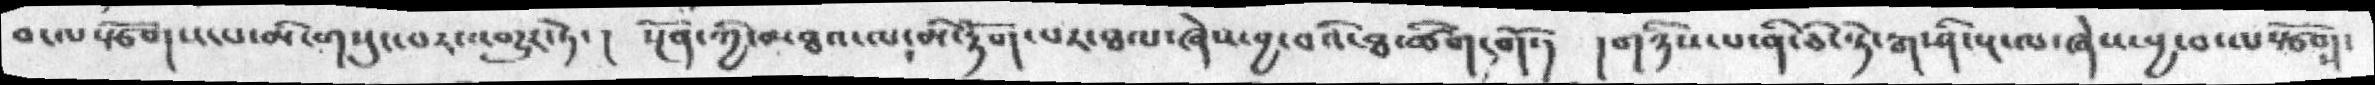བ་ལསྩོགས་པ་མི་གསུང་བར་འགྱུར་ཏེ་།  སྔོན་ཀྱི་མཐའ་ལ་མི་རྟོག་པར་ཐལ་ཞེས་བྱ་བའི་ཐ་ཚིག་གོ་།  །གཉིས་པ་ནི་ཅི་སྟེ་རྒ་ཤི་སྔ་ལ་ཞེས་བྱ་བ་ལསྩོགས་
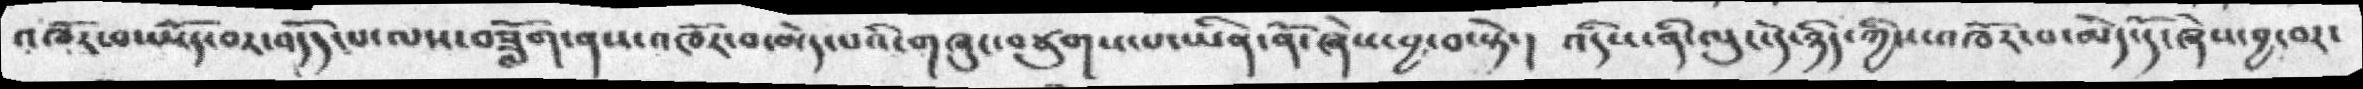འཁོར་བ་ཡོད་བར་འདོད་པ་ལས་བཟློག་ནས་འཁོར་བ་མེད་པའི་གཞུང་བཙུགས་པ་ཡིན་ནོ་ཞེས་བྱ་བསྟེ་།  འདིས་ནི་ལུང་དེ་ཉིད་ཀྱིས་འཁོར་བ་མེད་དོ་ཞེས་བྱ་བར་
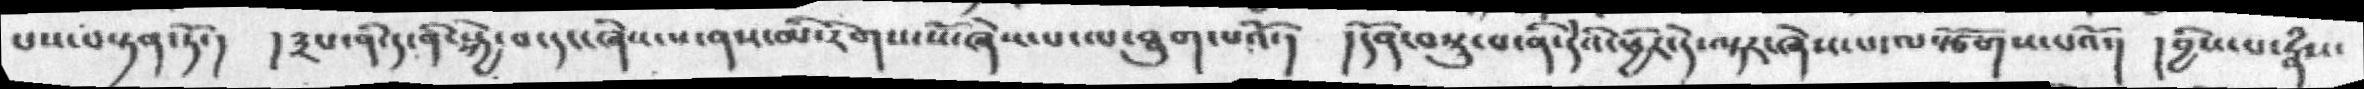པས་བསྟན་ཏོ་།  །༣པ་ནི་ད་ནི་སྐྱེ་བ་དང་ཞེས་པ་ནས་མི་རིགས་སོ་ཞེས་པ་ལ་ཐུག་པའོ་།  །དོན་བསྡུ་པ་ནི་དེའི་ཕྱིར་དེ་ལྟར་ཞེས་པ་ལསྩོགས་པའོ་། །བྱིས་པ་རྣཾས་
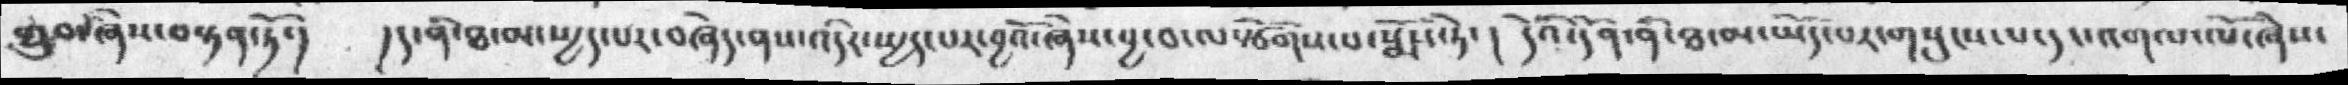གྲུབ་ཞེས་བསྟན་ཏོ་།  །ད་ནི་ཐ་མ་སྤྱད་པར་བཞེད་ནས་འདིར་སྤྱད་པར་བྱའོ་ཞེས་བྱ་བ་ལསྩོགས་པ་སྨོས་ཏེ་།  དེའི་དོན་ནི་ཐ་མ་ཡོད་པར་གསུངས་པ་དང་འགལ་ལོ་ཞེས་
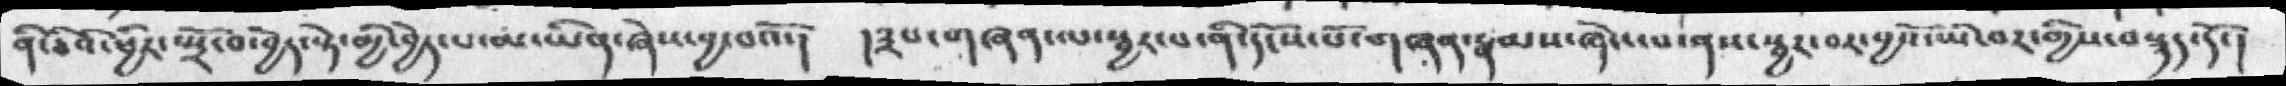ནི་ཅིའི་ཕྱིར་སྤྲོ་བ་བྱེད་སྟེ་མྱི་བྱེད་པ་མ་ཡིན་ཞེས་བྱ་བའོ་།  །༣པ་གཞན་ལ་སྦྱར་པ་ནི་དངོས་པོ་གཞན་རྣམས་ཞེས་པ་ནས་སྦྱར་བར་བྱའོ་ཡི་བར་གྱིས་བསྙད་དོ་།
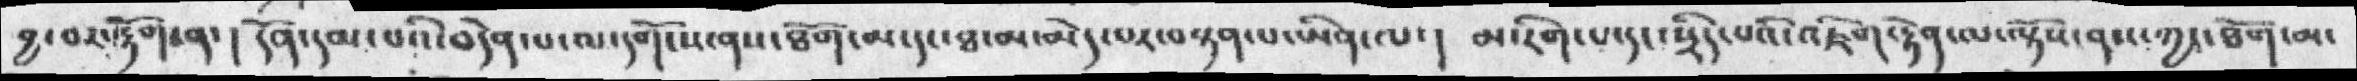བྱ་བར་རྟོག་ན་། དོན་དམ་པའི་བདེན་པ་ལ་དགོངས་ནས་ཐོག་མ་དང་ཐ་མ་མེད་པར་བསྟན་པ་ཡིན་ལ་།  མ་རིག་པ་དང་སྲིད་པའི་འཇིག་རྟེན་ལ་ལྟོས་ནས་ཀྱང་ཐོག་མ་
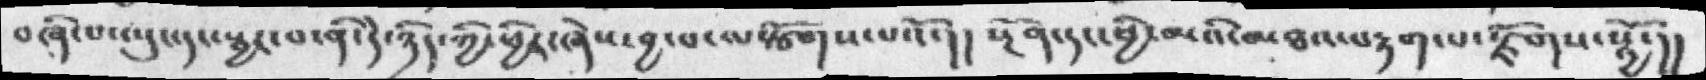བཞི་པ་ལུང་དང་སྦྱར་བ་ནི་དེ་ཉིད་ཀྱི་ཕྱིར་ཞེས་བྱ་བ་ལསྩོགས་པའོ་། སྔོན་དང་ཕྱི་མའི་མཐའ་བརྟག་པ་རྫོགས་སྷྱོ་།།
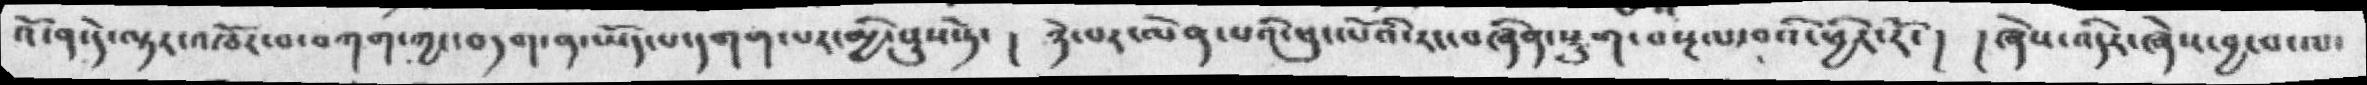འོ་ན་དེ་ལྟར་འཁོར་བ་བཀག་ཀྱང་བདག་ན་ཡོད་པ་དགག་པར་མྱི་སྡུས་ཏེ་། ཉེ་བར་ལེན་པའི་ཕུང་པོའི་རང་བཞིན་སྡུག་བསྔལ་བའི་ཕྱིར་རོ་།  །ཞེས་འདིར་ཞེས་བྱ་བ་ལ་
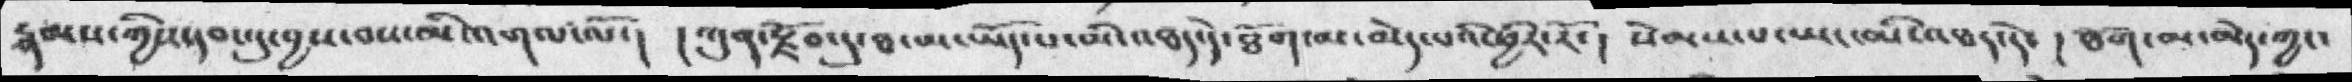རྣམས་ཀྱིས་དབང་དུ་བྱས་བས་མི་འགལ་ལོ་།  །ཀུན་རྫོབ་དུ་ཐ་མ་ཡོད་པ་མི་འཐད་དེ་ཐོག་མ་མེད་པའི་ཕྱིར་རོ་།  སེམས་པ་ཡང་མི་འཐད་དེ་། ཐོག་མ་མེད་ཀྱང་
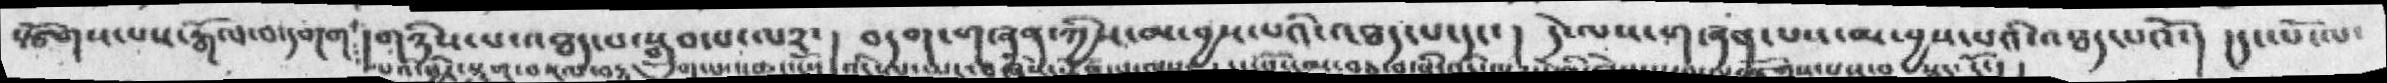སྩོགས་པས་རྒོལ་བ་དགག །གཉས་པ་འཐད་པ་སྒྲུབ་པ་ལ༢་།  བདག་གཞན་ཀྱིས་མ་བྱས་པའི་འཐད་པ་དང་།  དེ་ལས་གཞན་པས་མ་བྱས་པའི་འཐད་པའོ་།  །དང་པོ་ལ་
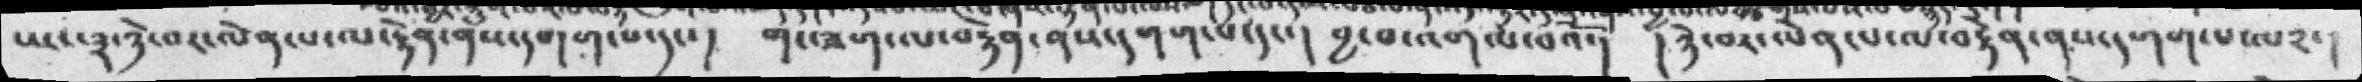ཡང་༣་ཉེ་བར་ལེན་པ་ལ་རྟེན་ནས་དགག་པ་དང་།  གང་ཟག་ལ་བརྟེན་ནས་དགག་པ་དང་།  བྱ་བ་འགལ་བའོ་།  །ཉེ་བར་ལེན་པ་ལ་བརྟེན་ནས་དགག་པ་ལ༢་།
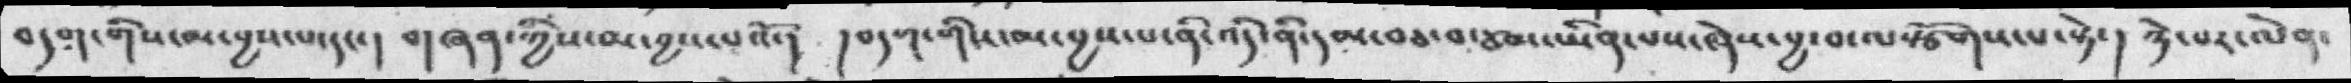བདག་གིས་མ་བྱས་པ་དང་།   གཞན་ཀྱིས་མ་བྱས་པའོ་།   །བདག་གིས་མ་བྱས་པ་ནི་འདི་ནི་དམ་བཅ་བ་ཙམ་ཡིན་པས་ཞེས་བྱ་བ་ལསྩོགས་པ་སྟེ་  །   ཉེ་པར་ལེན་
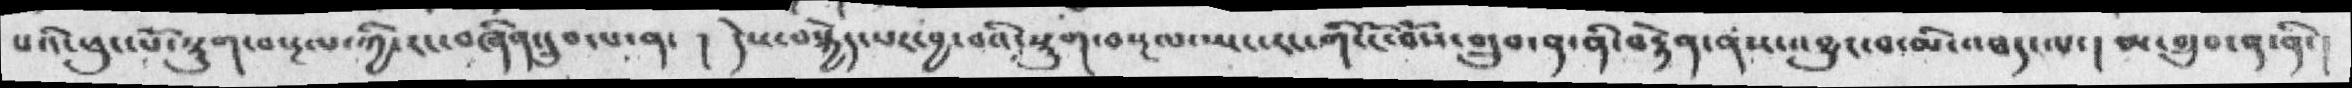པའི་ཕུང་པོ་སྡུག་བསྔལ་ཀྱི་རང་བཞིན་དུབ་པ་ན་།  དེས་བསྐྱེད་པར་བྱ་བའི་སྡུག་བསྔལ་ཡང་རང་གི་ངོ་བོས་གྲུབ་ན་ནི་བརྟེན་ནས་འབྱུང་བ་མི་འཐད་ལ་། མ་གྲུབ་ན་ནི་།
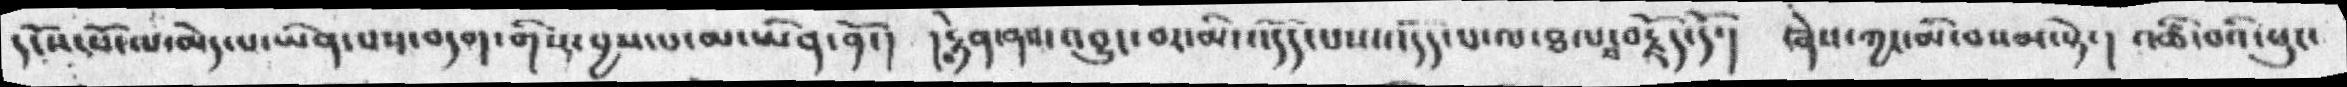དངོས་པོ་ལ་མེད་པ་ཡིན་པས་བདག་གིས་བྱས་པ་མ་ཡིན་ནོ་།   ། རྟེན་ནས་འབྱུང་བར་མི་འདོད་པས་འདོད་པ་ལ་ཐལ་བ་བརྗོད་དོ་།   ཞས་ཀྱང་མི་མསམ་སྟེ་།   འཚི་བའི་ཕུང་
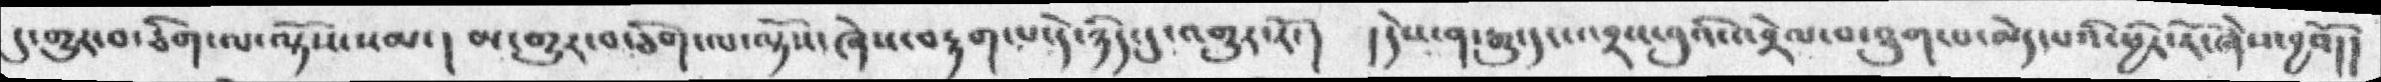དུ་གྱུར་བ་ཅིག་ལ་ལྟོས་སམ་། མ་གྱུར་བ་ཅིག་ལ་ལྟོས་ཞེས་བརྟག་པ་དེ་ཉིད་དུ་འགྱུར་རོ་། །དེས་ན་རྒྱུ་དང་འབྲས་བུའི་འབྲེལ་བ་ཐུག་པ་མེད་པའི་ཕྱིར་རོ་ཞེས་བྱའོ།།
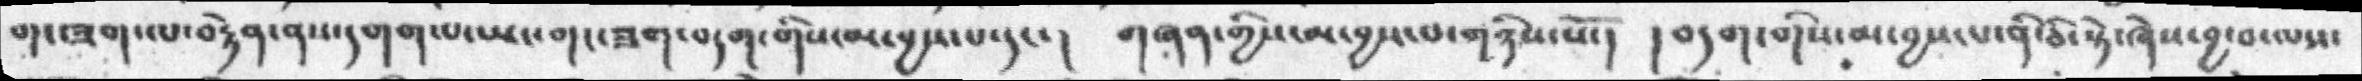གང་ཟག་ལ་བརྟེན་ནས་དགག་པ་ཡང་གང་ཟག་བདག་གིས་མ་བྱས་པ་དང་།  གཞན་གྱིས་མ་བྱས་པ་གཉིས་སོ་།  །བདག་གིས་མ་བྱས་པ་ནི་ཅི་སྟེ་ཞེས་བྱ་བ་ལས་
